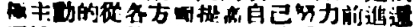極主動的從各方面提高自己努力前進還
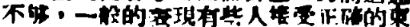不夠，一般的表現有些人接收正確的東
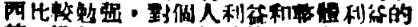西比較勉強，對個人利益和整體利益的
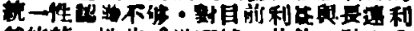統一性認識不夠，對目前利益與長遠利
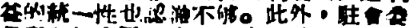益的統一性也認識不夠。此外，駐會委
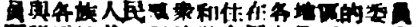員與各族人民羣衆和住在各地區的委員
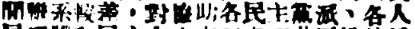間聯系較差，對協助各民主黨派、各人
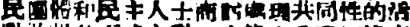民團體和民主人士商討處理共同性的活
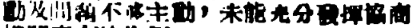動及問題不夠主動，未能充分發揮協商
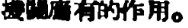機關應有的作用。
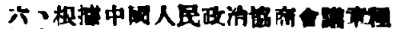六、根據中國人民政治協商會議章程
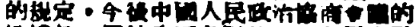的規定，今後中國人民政治協商會議的
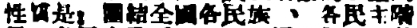性質是：團結全國各民族 、各民主階
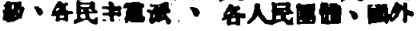級、各民主黨派 、各人民團體、國外
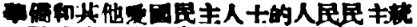華僑和其他愛果民主人士的人民民主統
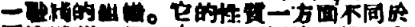一戰綫的組織。它的性質一方面不同於
